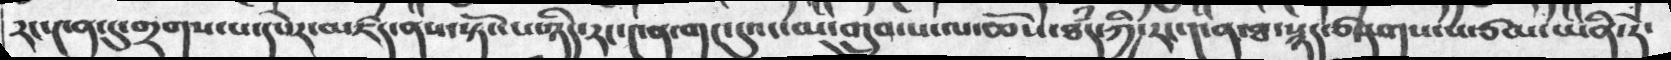རང་༤ན་དུ་གྲགས་པ་དཔེར་མཛད་ནས་སྟོང་པ་ཉིད་རང་༤ན་གང་དུའང་མ་གྲུབ་པ་ལ་ཆོས་ཐཾད་ཀྱི་རང་༤ན་ཐ་སྙད་ཙ་བཏགས་པ་ཙམ་ཡིན་རེ་
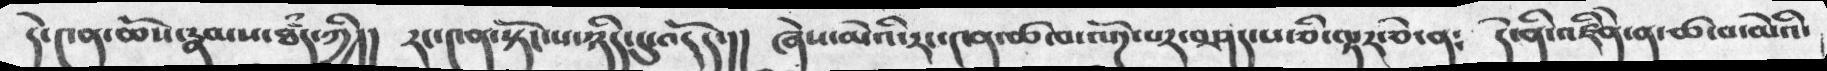དེ་༤ན་ཆོས་རྣམས་ཐཾད་ཀྱི།། རང་༤ན་སྟོང་པ་ཉིད་དུ་འདོད་།། ཞེས་མེའི་རང་༤ན་ཚ་བ་ལོཌ་པར་བཤད་པ་ཅི་ལྟར་ཅེ་ན༴ དེ་ནི་འཛིེན་ན་ཚ་བ་མེའི་
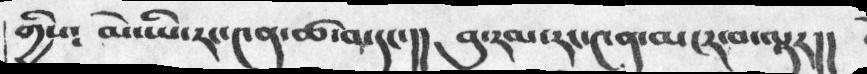གྱིས༴  མེ་ཡི་རང་༤ན་ཚ་བ་དང་།།  བུ་རམ་རང་༤ན་མངར་བ་ལྟར།།
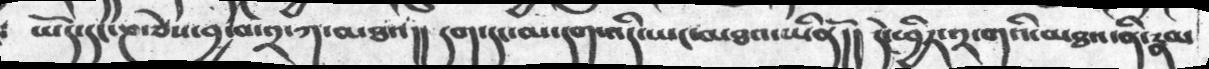ཡོད་དང་ཎ་ཅེས་བྱ་བ་༢་ཀ་མཐའ།།  དག་དང་མ་དག་འདི་ཡང་མཐའ་ཡིནོ།།  དེ་ཕྱིར་༢་གའི་མཐའ་ནི་རྣམ
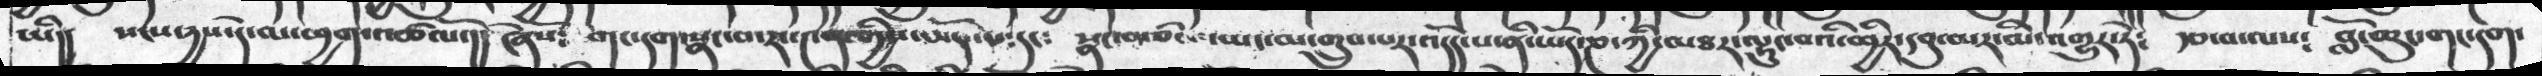ཡི།།  སངས་དྱས་དེ་ལ་ཕྱག་འཚལོ་།།  ཞེསོ༴  གང་དག་སྣང་བ་རང་༤ན་གྱིས་ཡོད་པ་དང༴   སྣང་བ་ཙམ་ཡང་མ་གྲུབ་པར་འདོད་པ་ནི་ཡོད་ཎ་ཀྱི་མཐར་ལྟུང་ཕྱིར་དབུ་མར་མི་འགྱུར་ཏེ༴  རྩ་བ་ལས༴  བློ་ཆུང་གང་དག་
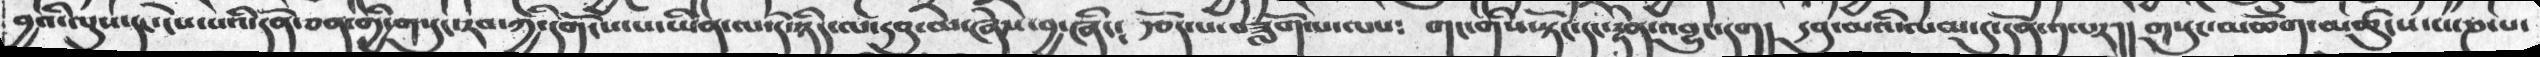བྱའི་ལུས་དང་ངེས་པའི་དོན་ཅན་གྱི་གསུང་རབ་ཀྱི་དགོངས་པ་ཡིན་ལ་དེ་ཉིད་ལ་དབུ་མ་ཞེས་བྱ་ཞིང༴ རྩོད་པ་བཟློག་པ་ལས༴ གང་གིས་སྟོང་དང་རྟེན་འབྱུང་དག། དབུ་མའི་ལམ་དུ་དོན་༡་པར།། གསུང་མཆོག་མཚུངས་པ་ཎ་པ་
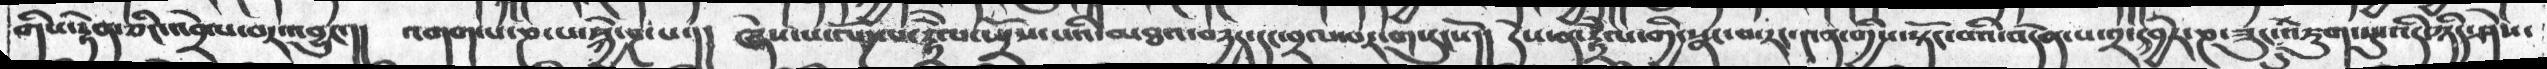གིས་རྟེན་ཅིང་འབྲེལ་བར་འབྱུང་།།  འགག་པ་ཎ་པ་སྐྱེ་བ་ཎ་པ་།།  ཞེས་པ་ལོཌ་པ་རྟྲེེལ་སྤྲོས་པའི་མཐའ་བདྱད་དང་བྲལ་བར་གསུངསོ།།  དེས་ན་རྟྲེེལ་གྱི་སྣང་བ་རང་༤ན་གྱིས་སྟོང་བའི་བདེན་པ་༢་དབྱེར་ཎ་ཟུང་དུ་འཇུག་སུ་འདི་ཉིད་ཤེས་
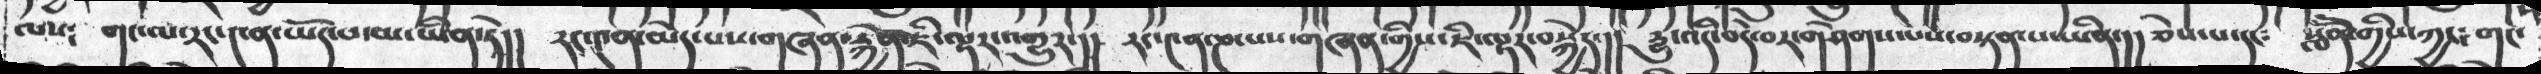ལས༴ གང་ལ་རང་༤ན་ཡོད་པ་མ་ཡིན་ཏེ།། རང་༤ན་མེད་པས་གཞན་རྐྱེན་ཇི་ལྟར་འགྱུར་།། རང་༤ན་ཎ་པས་གཞན་གྱིས་ཇི་ལྟར་བསྐྱེད་།། དྱུ་འདི་བདེ་བར་གཤེགས་པས་བསྟན་པ་ཡིན་།།ཅེས་པ་དང༴ སློོན་གྱིས་ཀྱང༴ གང་
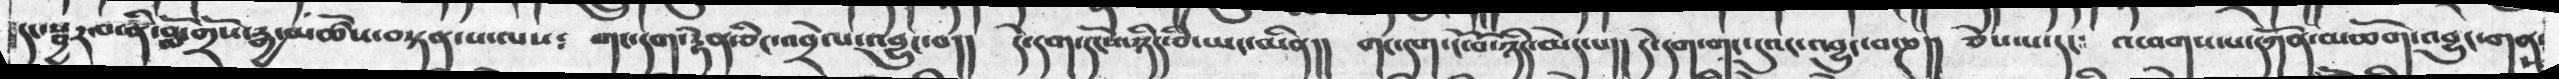དང་སྦྱར་བ་ནི་བློ་གྲོས་རྒྱ་མཚོས་བསྟན་པ་ལས༴   གང་དག་རྟེན་ཅིང་འབྲེལ་འབྱུང་བ།།  དེ་དག་དངོས་ཉིད་ཅི་ཡང་མིན།།  གང་དག་ངོ་བོ་ཉིད་དུའང་འབྱུང་བ་ཎ།།  ཅེས་པ་དང༴  འཕགས་པ་དཀོན་མཆོག་འབྱུང་གནས་
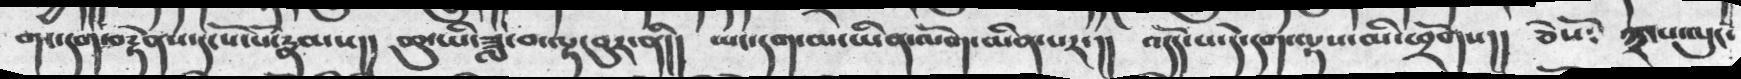གང་དག་བརྟེནས་དངོས་པོ་རྣམས།། ཆུ་ཡི་ཟླ་བ་ལྟ་བུར་ནི།། ཡང་དག་མ་ཡིན་ལོག་མིན་པར་།། འདོད་པ་དེ་དག་ལྟས་མི་ཕྲོགས།། ཅེསོ༴ ༣་པ་ལུང་
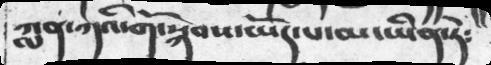ཀླན་ཀའི་གོ་སྐབས་ཡོད་པ་མ་ཡིན་ཏེ༴
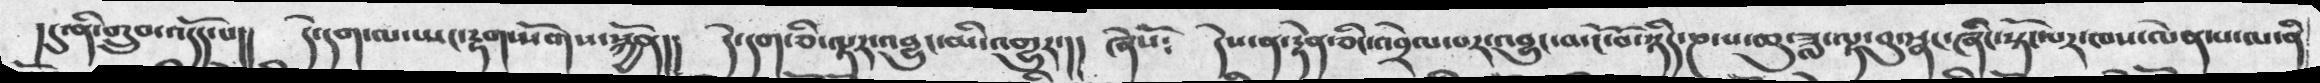།དུ་ནི་གྲུབ་འདོད་པ།།  དེ་དག་ལ་ཡང་རྟག་སོགས་སྐྱོན།།  དེ་དག་ཅི་ལྟར་འབྱུང་མི་འགྱུར་།། ཞེསོ༴  དེས་ན་རྟེན་ཅིང་འབྲེལ་བར་འབྱུང་བ་ངོ་བོ་ཉིད་ཎ་པ་ཆུ་ཟླ་ལྟ་བུ་སྣང་ཞིང་སྟོང་པར་ཁས་ལེན་པ་ལ་ནི
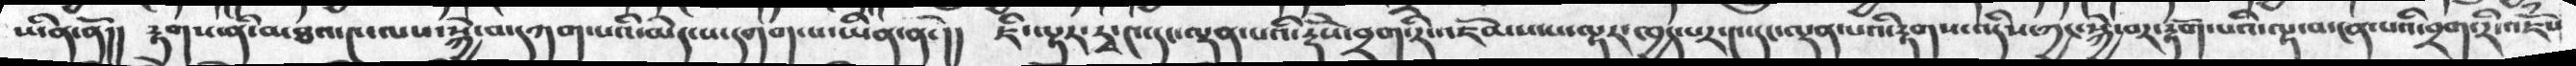ཡིན་ནོ།། རྟགས་ནི་མཐའ་༤་ལས་སྐྱེ་བ་དཀག་པའི་མེད་པ་དགག་པ་ཡིན་ནོ་།། ཇི་ལྟར་རྭ་༤་དང་ལྡན་པའི་རྡོེས་བྲག་རི་འཇོམས་པ་ལྟར་ཁྱད་པར་༤་དང་ལྡན་པའི་རྟགས་འདིས་ཀྱང་སྐྱེ་བར་རྟོག་པའི་ལྟ་བ་ངན་པའི་བྲག་རི་འཇོཾས
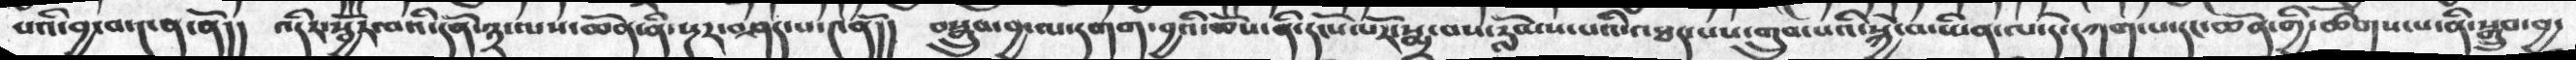པའི་བྱ་བ་༤ན་ནོ།། འདིར་སྦྱོར་བའི་དོན་༣་ལས་ཆོན་ནི་སྔར་བཤད་པ་༤ནོ།། བསྒྲུབ་བྱ་ལ་དགག་བྱའི་ཆོས་ནི་དངོས་པོར་སྨྲ་བས་རློམས་པའི་འཐད་པས་གྲུབ་པའི་སྐྱེ་བ་ཡིན་ལ་དེ་དཀག་པ་དང་ཆོན་གྱི་ཚོགས་པ་ནི་སྒྲུབ་བྱ་
